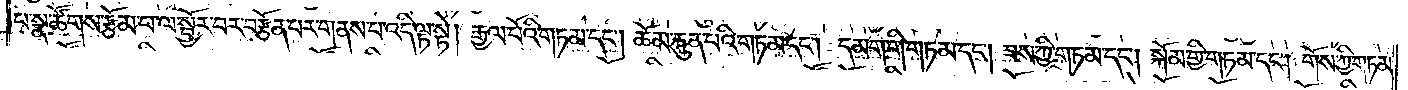པ་སྣ་ཚོགས་རྩོམ་པ་ལ་སྦྱོར་བར་བརྩོན་པར་གནས་པ་འདི་ལྟ་སྟེ། རྒྱལ་པོའི་གཏམ་དང༌། ཆོམ་རྐུན་པའི་གཏམ་དང༌། དམག་གི་གཏམ་དང༌། ཟས་ཀྱི་གཏམ་དང༌། སྐོམ་གྱི་གཏམ་དང༌། གོས་ཀྱི་གཏམ་
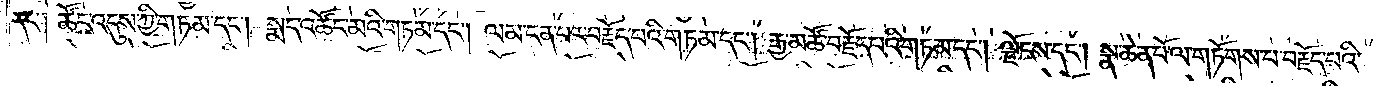དང༌། ཚོང་འདུས་ཀྱི་གཏམ་དང༌། སྨད་འཚོང་མའི་གཏམ་དང༌། ལམ་ངན་པར་བརྗོད་པའི་གཏམ་དང༌། རྒྱ་མཚོ་བརྗོད་པའི་གཏམ་དང༌། ལྗོངས་དང༌། སྣ་ཆེན་པོ་ལ་གཏོགས་པ་བརྗོད་པའི་
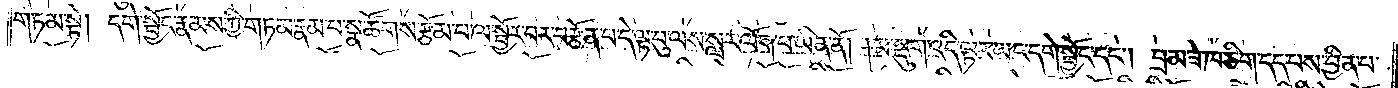གཏམ་སྟེ། དགེ་སྦྱོང་རྣམས་ཀྱི་གཏམ་རྣམ་པ་སྣ་ཚོགས་རྩོམ་པ་ལ་སྦྱོར་བར་བརྩོན་པ་དེ་ལྟ་བུ་ལས་སླར་ལོག་པ་ཡིན་ནོ། །མ་སྡུག་འདི་ལྟར་ཡང་དགེ་སྦྱོང་དང༌། བྲམ་ཟེ་ཁ་ཅིག་དད་པས་བྱིན་པ་
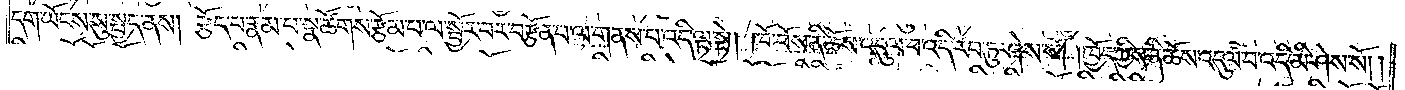དག་ཡོངས་སུ་སྤྱད་ནས། རྩོད་པ་རྣམ་པ་སྣ་ཚོགས་རྩོམ་པ་ལ་སྦྱོར་བར་བརྩོན་པ་ལ་གནས་པ་འདི་ལྟ་སྟེ། ཁོ་བོས་ནི་ཆོས་འདུལ་བ་འདི་རབ་ཏུ་ཤེས་སོ། །ཁྱོད་ཀྱིས་ནི་ཆོས་འདུལ་བ་འདི་མི་ཤེས་སོ། །
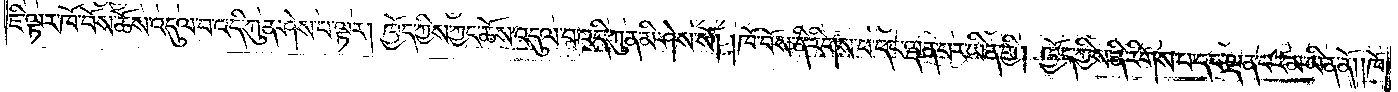ཇི་ལྟར་ཁོ་བོས་ཆོས་འདུལ་བ་འདི་ཀུན་ཤེས་པ་ལྟར། ཁྱོད་ཀྱིས་ཀྱང་ཆོས་འདུལ་བ་འདི་ཀུན་མི་ཤེས་སོ། །ཁོ་བོས་ནི་རིགས་པ་དང་ལྡན་པར་ཡིན་གྱི། ཁྱོད་ཀྱིས་ནི་རིགས་པ་དང་ལྡན་པར་མ་ཡིན་ནོ། །ཁོ་
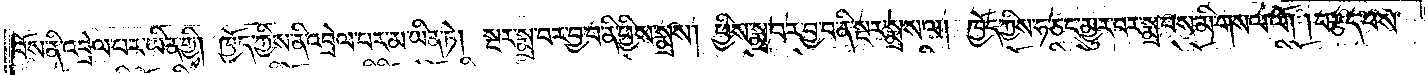བོས་ནི་འབྲེལ་པར་ཡིན་གྱི། ཁྱོད་ཀྱིས་ནི་འབྲེལ་པར་མ་ཡིན་ཏེ། སྔར་སྨྲ་བར་བྱ་བ་ནི་ཕྱིས་སྨྲས། ཕྱིས་སྨྲ་བར་བྱ་བ་ནི་སྔར་སྨྲས་ལ། ཁྱོད་ཀྱིས་ཧ་ཅང་མྱུར་བར་སྨྲ་བས་མི་གསལ་ལོ། །བརྩད་པས་
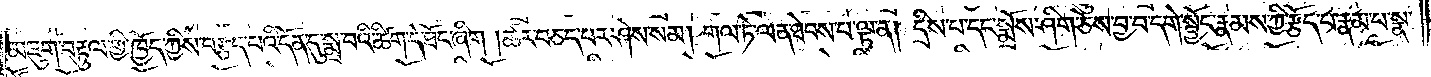མཇུག་བརྟུལ་གྱི་ཁྱོད་ཀྱིས་བརྩད་པའི་དོན་དུ་སྨྲ་བའི་ཚིག་དེ་ཐོང་ཞིག །ཚར་བཅད་པར་ཤེས་སམ། གལ་ཏེ་ལན་ཐེབས་པ་ལྟ་ན། དྲིས་པ་དང་སྨྲོས་ཤིག་ཅེས་བྱ་བ་དགེ་སྦྱོང་རྣམས་ཀྱི་རྩོད་པ་རྣམ་པ་སྣ་
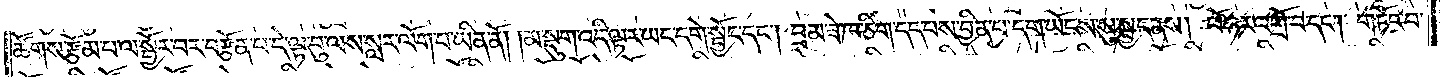ཚོགས་རྩོམ་པ་ལ་སྦྱོར་བར་བརྩོན་པ་དེ་ལྟ་བུ་ལས་སླར་ལོག་པ་ཡིན་ནོ། །མ་སྡུག་འདི་ལྟར་ཡང་དགེ་སྦྱོང་དང༌། བྲམ་ཟེ་ཁ་ཅིག་དད་པས་བྱིན་པ་དག་ཡོངས་སུ་སྤྱད་ནས། ཕོ་ཉར་འགྲོ་བ་དང༌། གཏོང་བ་
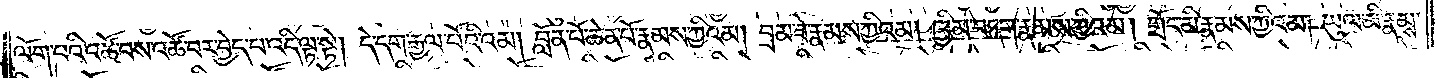ལོག་པའི་འཚོ་བས་འཚོ་བར་བྱེད་པ་འདི་ལྟ་སྟེ། དེ་དག་རྒྱལ་པོའི་འམ། བློན་པོ་ཆེན་པོ་རྣམས་ཀྱིའམ། བྲམ་ཟེ་རྣམས་ཀྱིའམ། ཁྱིམ་བདག་རྣམས་ཀྱིའམ། གྲོང་མི་རྣམས་ཀྱིའམ། ཡུལ་མི་རྣམས་
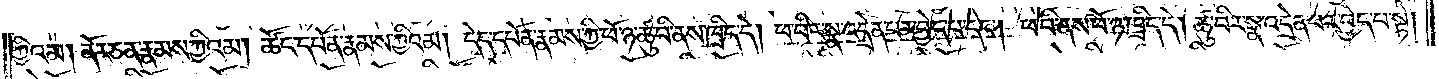ཀྱིའམ། ནོར་ཅན་རྣམས་ཀྱིའམ། ཚོང་དཔོན་རྣམས་ཀྱིའམ། དེད་དཔོན་རྣམས་ཀྱི་ཕོ་ཉ་ཚུ་བི་ནས་ཁྲིད་དེ། ཕ་བིར་སྣ་འདྲེན་པར་བྱེད་པ་དང༌། ཕ་བི་ནས་ཕོ་ཉ་ཁྲིད་དེ། ཚུ་བིར་སྣ་འདྲེན་པར་བྱེད་པ་སྟེ།
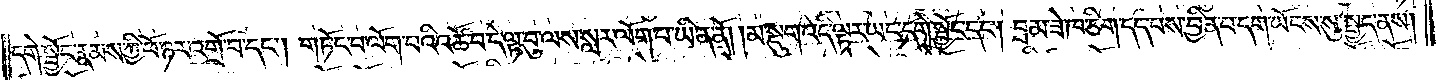དགེ་སྦྱོང་རྣམས་ཀྱི་ཕོ་ཉར་འགྲོ་བ་དང༌། གཏོང་བ་ལོག་པའི་འཚོ་བ་དེ་ལྟ་བུ་ལས་སླར་ལོག་པ་ཡིན་ནོ། །མ་སྡུག་འདི་ལྟར་ཡང་དགེ་སྦྱོང་དང༌། བྲམ་ཟེ་ཁ་ཅིག་དད་པས་བྱིན་པ་དག་ཡོངས་སུ་སྤྱད་ནས།
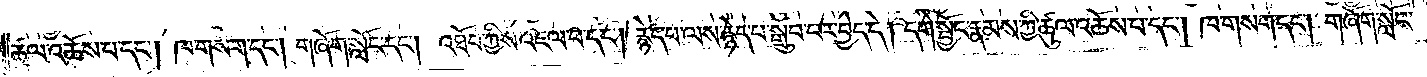ཚུལ་འཆོས་པ་དང༌། ཁ་གསག་དང༌། གཞོག་སློང་དང༌། འཐོབ་ཀྱིས་འཇལ་བ་དང༌། རྙེད་པ་ལས་རྙེད་པ་སྒྲུབ་པར་བྱེད་དེ། དགེ་སྦྱོང་རྣམས་ཀྱི་ཚུལ་འཆོས་པ་དང༌། ཁ་གསག་དང༌། གཞོག་སློང་
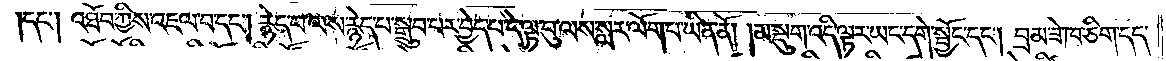དང༌། འཐོབ་ཀྱིས་འཇལ་བ་དང༌། རྙེད་པ་ལས་རྙེད་པ་སྒྲུབ་པར་བྱེད་པ་དེ་ལྟ་བུ་ལས་སླར་ལོག་པ་ཡིན་ནོ། །མ་སྡུག་འདི་ལྟར་ཡང་དགེ་སྦྱོང་དང༌། བྲམ་ཟེ་ཁ་ཅིག་དད་
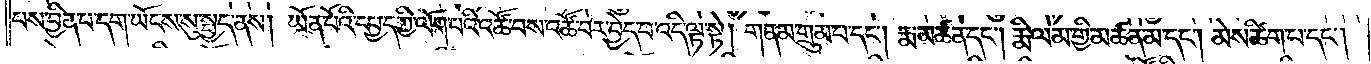པས་བྱིན་པ་དག་ཡོངས་སུ་སྤྱད་ནས། ཡོན་པོའི་དཔྱད་ཀྱི་ལོག་པའི་འཚོ་བས་འཚོ་བར་བྱེད་པ་འདི་ལྟ་སྟེ། གནམ་གྲུམ་པ་དང༌། རྨ་མཚན་དང༌། རྨི་ལམ་གྱི་མཚན་མ་དང༌། མེས་ཚིག་པ་དང༌།
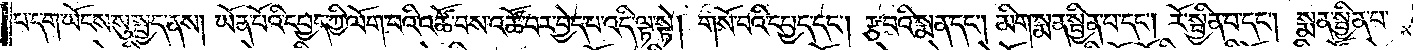པ་དག་ཡོངས་སུ་སྤྱད་ནས། ཡོན་པོའི་དཔྱད་ཀྱི་ལོག་པའི་འཚོ་བས་འཚོ་བར་བྱེད་པ་འདི་ལྟ་སྟེ། གསོ་བའི་དཔྱད་དང༌། རྩ་བའི་སྨན་དང༌། མིག་སྨན་སྦྱིན་པ་དང༌། རོ་སྦྱིན་པ་དང༌། སྨན་སྦྱིན་པ་
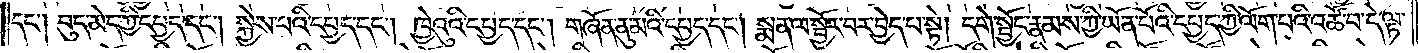དང༌། བུད་མེད་ཀྱི་དཔྱད་དང༌། སྐྱེས་པའི་དཔྱད་དང༌། ཁྱེའུའི་དཔྱད་དང༌། གཞོན་ནུ་མའི་དཔྱད་དང༌། སྨན་ལ་སྦྱོར་བར་བྱེད་པ་སྟེ། དགེ་སྦྱོང་རྣམས་ཀྱི་ཡོན་པོའི་དཔྱད་ཀྱི་ལོག་པའི་འཚོ་བ་དེ་ལྟ་
